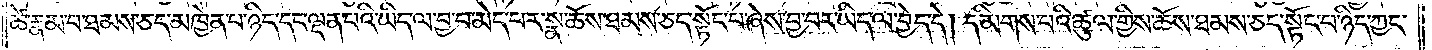ཚེ་རྣམ་པ་ཐམས་ཅད་མཁྱེན་པ་ཉིད་དང་ལྡན་པའི་ཡིད་ལ་བྱ་བ་མེད་པར་སྣ་ཆོས་ཐམས་ཅད་སྟོང་པ་ཞེས་བྱ་བར་ཡིད་ལ་བྱེད་དེ། དམིགས་པའི་ཚུལ་གྱིས་ཆོས་ཐམས་ཅད་སྟོང་པ་ཉིད་ཀྱང་
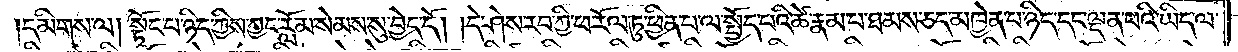དམིགས་ལ། སྟོང་པ་ཉིད་ཀྱིས་ཀྱང་རློམ་སེམས་སུ་བྱེད་དོ། །དེ་ཤེས་རབ་ཀྱི་ཕ་རོལ་ཏུ་ཕྱིན་པ་ལ་སྤྱོད་པའི་ཚེ་རྣམ་པ་ཐམས་ཅད་མཁྱེན་པ་ཉིད་དང་ལྡན་པའི་ཡིད་ལ་
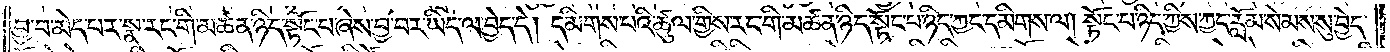བྱ་བ་མེད་པར་སྣ་རང་གི་མཚན་ཉིད་སྟོང་པ་ཞེས་བྱ་བར་ཡིད་ལ་བྱེད་དེ། དམིགས་པའི་ཚུལ་གྱིས་རང་གི་མཚན་ཉིད་སྟོང་པ་ཉིད་ཀྱང་དམིགས་ལ། སྟོང་པ་ཉིད་ཀྱིས་ཀྱང་རློམ་སེམས་སུ་བྱེད་
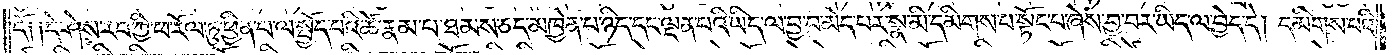དོ༑ ༑དེ་ཤེས་རབ་ཀྱི་ཕ་རོལ་ཏུ་ཕྱིན་པ་ལ་སྤྱོད་པའི་ཚེ་རྣམ་པ་ཐམས་ཅད་མཁྱེན་པ་ཉིད་དང་ལྡན་པའི་ཡིད་ལ་བྱ་བ་མེད་པར་སྣ་མི་དམིགས་པ་སྟོང་པ་ཞེས་བྱ་བར་ཡིད་ལ་བྱེད་དེ། དམིགས་པའི་
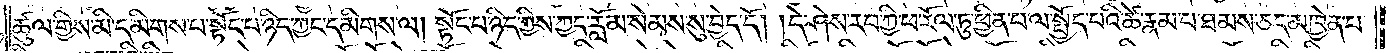ཚུལ་གྱིས་མི་དམིགས་པ་སྟོང་པ་ཉིད་ཀྱང་དམིགས་ལ། སྟོང་པ་ཉིད་ཀྱིས་ཀྱང་རློམ་སེམས་སུ་བྱེད་དོ། །དེ་ཤེས་རབ་ཀྱི་ཕ་རོལ་ཏུ་ཕྱིན་པ་ལ་སྤྱོད་པའི་ཚེ་རྣམ་པ་ཐམས་ཅད་མཁྱེན་པ་
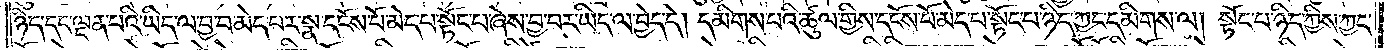ཉིད་དང་ལྡན་པའི་ཡིད་ལ་བྱ་བ་མེད་པར་སྣ་དངོས་པོ་མེད་པ་སྟོང་པ་ཞེས་བྱ་བར་ཡིད་ལ་བྱེད་དེ། དམིགས་པའི་ཚུལ་གྱིས་དངོས་པོ་མེད་པ་སྟོང་པ་ཉིད་ཀྱང་དམིགས་ལ། སྟོང་པ་ཉིད་ཀྱིས་ཀྱང་
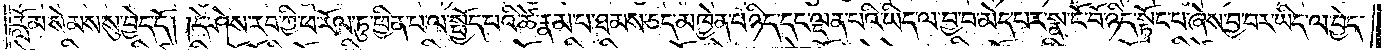རློམ་སེམས་སུ་བྱེད་དོ། །དེ་ཤེས་རབ་ཀྱི་ཕ་རོལ་ཏུ་ཕྱིན་པ་ལ་སྤྱོད་པའི་ཚེ་རྣམ་པ་ཐམས་ཅད་མཁྱེན་པ་ཉིད་དང་ལྡན་པའི་ཡིད་ལ་བྱ་བ་མེད་པར་སྣ་ངོ་བོ་ཉིད་སྟོང་པ་ཞེས་བྱ་བར་ཡིད་ལ་བྱེད་
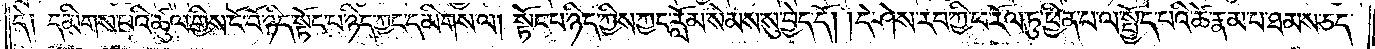དེ༑ དམིགས་པའི་ཚུལ་གྱིས་ངོ་བོ་ཉིད་སྟོང་པ་ཉིད་ཀྱང་དམིགས་ལ། སྟོང་པ་ཉིད་ཀྱིས་ཀྱང་རློམ་སེམས་སུ་བྱེད་དོ། །དེ་ཤེས་རབ་ཀྱི་ཕ་རོལ་ཏུ་ཕྱིན་པ་ལ་སྤྱོད་པའི་ཚེ་རྣམ་པ་ཐམས་ཅད་
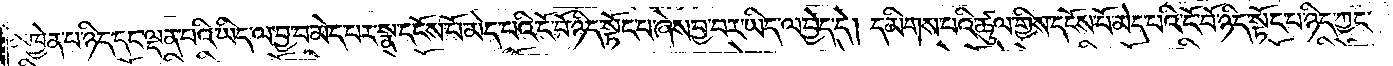མཁྱེན་པ་ཉིད་དང་ལྡན་པའི་ཡིད་ལ་བྱ་བ་མེད་པར་སྣ་དངོས་པོ་མེད་པའི་ངོ་བོ་ཉིད་སྟོང་པ་ཞེས་བྱ་བར་ཡིད་ལ་བྱེད་དེ། དམིགས་པའི་ཚུལ་གྱིས་དངོས་པོ་མེད་པའི་ངོ་བོ་ཉིད་སྟོང་པ་ཉིད་ཀྱང་
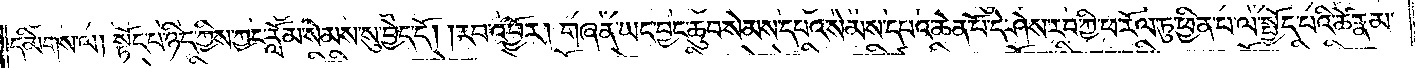དམིགས་ལ། སྟོང་པ་ཉིད་ཀྱིས་ཀྱང་རློམ་སེམས་སུ་བྱེད་དོ། །རབ་འབྱོར། གཞན་ཡང་བྱང་ཆུབ་སེམས་དཔའ་སེམས་དཔའ་ཆེན་པོ་དེ་ཤེས་རབ་ཀྱི་ཕ་རོལ་ཏུ་ཕྱིན་པ་ལ་སྤྱོད་པའི་ཚེ་རྣམ་
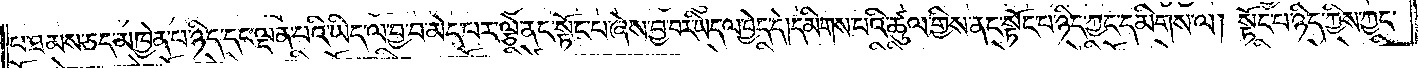པ་ཐམས་ཅད་མཁྱེན་པ་ཉིད་དང་ལྡན་པའི་ཡིད་ལ་བྱ་བ་མེད་པར་ལྕེ་ནང་སྟོང་པ་ཞེས་བྱ་བར་ཡིད་ལ་བྱེད་དེ། དམིགས་པའི་ཚུལ་གྱིས་ནང་སྟོང་པ་ཉིད་ཀྱང་དམིགས་ལ། སྟོང་པ་ཉིད་ཀྱིས་ཀྱང་
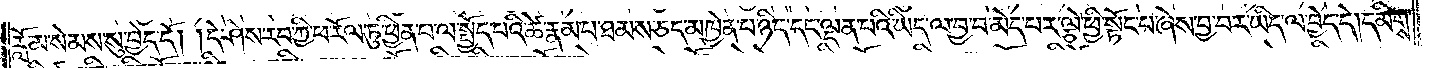རློམ་སེམས་སུ་བྱེད་དོ། །དེ་ཤེས་རབ་ཀྱི་ཕ་རོལ་ཏུ་ཕྱིན་པ་ལ་སྤྱོད་པའི་ཚེ་རྣམ་པ་ཐམས་ཅད་མཁྱེན་པ་ཉིད་དང་ལྡན་པའི་ཡིད་ལ་བྱ་བ་མེད་པར་ལྕེ་ཕྱི་སྟོང་པ་ཞེས་བྱ་བར་ཡིད་ལ་བྱེད་དེ། དམིགས་
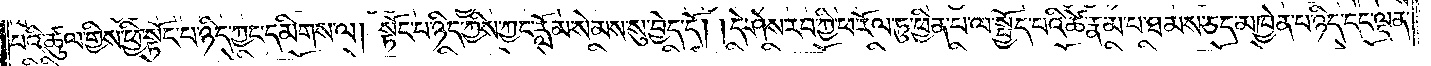པའི་ཚུལ་གྱིས་ཕྱི་སྟོང་པ་ཉིད་ཀྱང་དམིགས་ལ། སྟོང་པ་ཉིད་ཀྱིས་ཀྱང་རློམ་སེམས་སུ་བྱེད་དོ། །དེ་ཤེས་རབ་ཀྱི་ཕ་རོལ་ཏུ་ཕྱིན་པ་ལ་སྤྱོད་པའི་ཚེ་རྣམ་པ་ཐམས་ཅད་མཁྱེན་པ་ཉིད་དང་ལྡན་
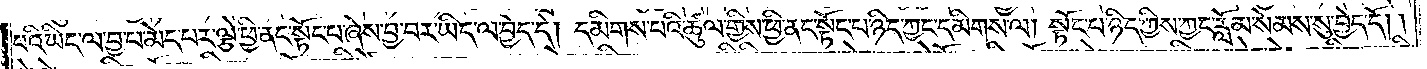པའི་ཡིད་ལ་བྱ་བ་མེད་པར་ལྕེ་ཕྱི་ནང་སྟོང་པ་ཞེས་བྱ་བར་ཡིད་ལ་བྱེད་དེ། དམིགས་པའི་ཚུལ་གྱིས་ཕྱི་ནང་སྟོང་པ་ཉིད་ཀྱང་དམིགས་ལ། སྟོང་པ་ཉིད་ཀྱིས་ཀྱང་རློམ་སེམས་སུ་བྱེད་དོ། །
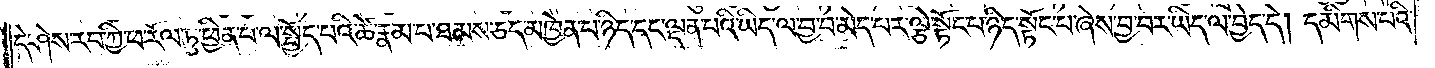དེ་ཤེས་རབ་ཀྱི་ཕ་རོལ་ཏུ་ཕྱིན་པ་ལ་སྤྱོད་པའི་ཚེ་རྣམ་པ་ཐམས་ཅད་མཁྱེན་པ་ཉིད་དང་ལྡན་པའི་ཡིད་ལ་བྱ་བ་མེད་པར་ལྕེ་སྟོང་པ་ཉིད་སྟོང་པ་ཞེས་བྱ་བར་ཡིད་ལ་བྱེད་དེ། དམིགས་པའི་
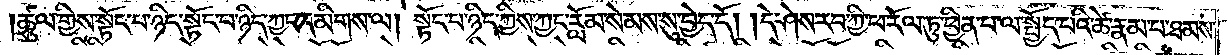ཚུལ་གྱིས་སྟོང་པ་ཉིད་སྟོང་པ་ཉིད་ཀྱང་དམིགས་ལ། སྟོང་པ་ཉིད་ཀྱིས་ཀྱང་རློམ་སེམས་སུ་བྱེད་དོ། །དེ་ཤེས་རབ་ཀྱི་ཕ་རོལ་ཏུ་ཕྱིན་པ་ལ་སྤྱོད་པའི་ཚེ་རྣམ་པ་ཐམས་
